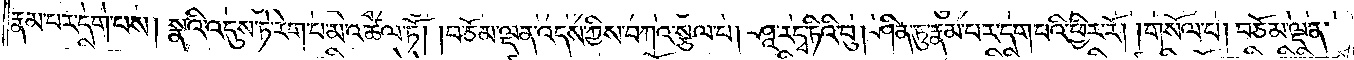རྣམ་པར་དག་པས། སྣའི་འདུས་ཏེ་རེག་པ་མ་འཚལ་ཏོ། །བཅོམ་ལྡན་འདས་ཀྱིས་བཀའ་སྩལ་པ། ཤཱ་རདྭ་ཏིའི་བུ། ཤིན་ཏུ་རྣམ་པར་དག་པའི་ཕྱིར་རོ། །གསོལ་པ། བཅོམ་ལྡན་
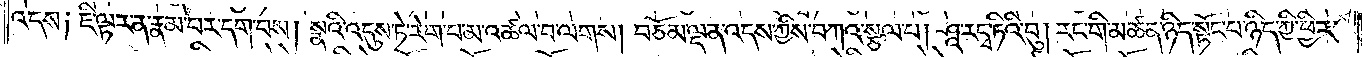འདས༑ ཇི་ལྟར་ན་རྣམ་པར་དག་པས། སྣའི་འདུས་ཏེ་རེག་པ་མ་འཚལ་བ་ལགས། བཅོམ་ལྡན་འདས་ཀྱིས་བཀའ་སྩལ་པ། ཤཱ་རདྭ་ཏིའི་བུ། རང་གི་མཚན་ཉིད་སྟོང་པ་ཉིད་ཀྱི་ཕྱིར་
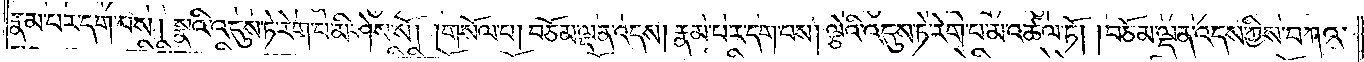རྣམ་པར་དག་པས། སྣའི་འདུས་ཏེ་རེག་པ་མི་ཤེས་སོ། །གསོལ་པ། བཅོམ་ལྡན་འདས། རྣམ་པར་དག་པས། ལྕེའི་འདུས་ཏེ་རེག་པ་མ་འཚལ་ཏོ། །བཅོམ་ལྡན་འདས་ཀྱིས་བཀའ་
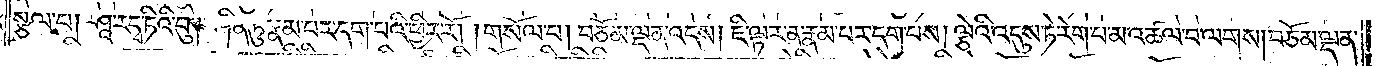སྩལ་པ། ཤཱ་རདྭ་ཏིའི་བུ། ཤིན་ཏུ་རྣམ་པར་དག་པའི་ཕྱིར་རོ། །གསོལ་པ། བཅོམ་ལྡན་འདས། ཇི་ལྟར་ན་རྣམ་པར་དག་པས། ལྕེའི་འདུས་ཏེ་རེག་པ་མ་འཚལ་བ་ལགས། བཅོམ་ལྡན་
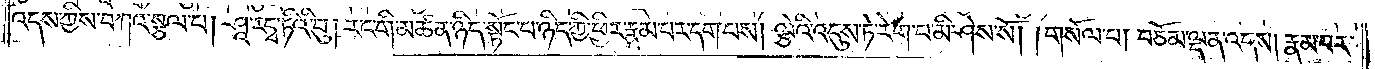འདས་ཀྱིས་བཀའ་སྩལ་པ། ཤཱ་རདྭ་ཏིའི་བུ། རང་གི་མཚན་ཉིད་སྟོང་པ་ཉིད་ཀྱི་ཕྱིར་རྣམ་པར་དག་པས། ལྕེའི་འདུས་ཏེ་རེག་པ་མི་ཤེས་སོ། །གསོལ་པ། བཅོམ་ལྡན་འདས། རྣམ་པར་
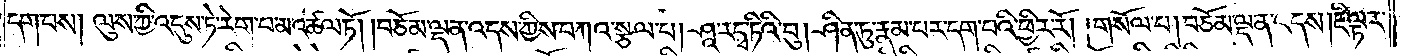དག་པས། ལུས་ཀྱི་འདུས་ཏེ་རེག་པ་མ་འཚལ་ཏོ། །བཅོམ་ལྡན་འདས་ཀྱིས་བཀའ་སྩལ་པ། ཤཱ་རདྭ་ཏིའི་བུ། ཤིན་ཏུ་རྣམ་པར་དག་པའི་ཕྱིར་རོ། །གསོལ་པ། བཅོམ་ལྡན་འདས། ཇི་ལྟར་
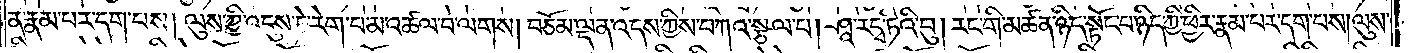ན་རྣམ་པར་དག་པས། ལུས་ཀྱི་འདུས་ཏེ་རེག་པ་མ་འཚལ་བ་ལགས། བཅོམ་ལྡན་འདས་ཀྱིས་བཀའ་སྩལ་པ། ཤཱ་རདྭ་ཏིའི་བུ། རང་གི་མཚན་ཉིད་སྟོང་པ་ཉིད་ཀྱི་ཕྱིར་རྣམ་པར་དག་པས། ལུས་
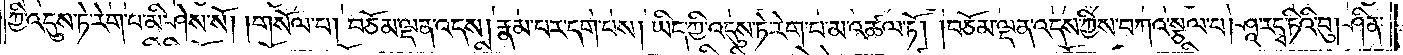ཀྱི་འདུས་ཏེ་རེག་པ་མི་ཤེས་སོ། །གསོལ་པ། བཅོམ་ལྡན་འདས། རྣམ་པར་དག་པས། ཡིད་ཀྱི་འདུས་ཏེ་རེག་པ་མ་འཚལ་ཏོ། །བཅོམ་ལྡན་འདས་ཀྱིས་བཀའ་སྩལ་པ། ཤཱ་རདྭ་ཏིའི་བུ། ཤིན་
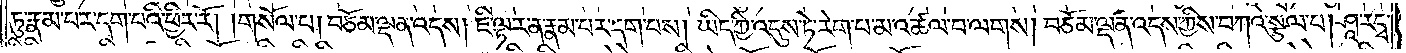ཏུ་རྣམ་པར་དག་པའི་ཕྱིར་རོ། །གསོལ་པ། བཅོམ་ལྡན་འདས། ཇི་ལྟར་ན་རྣམ་པར་དག་པས། ཡིད་ཀྱི་འདུས་ཏེ་རེག་པ་མ་འཚལ་བ་ལགས། བཅོམ་ལྡན་འདས་ཀྱིས་བཀའ་སྩལ་པ། ཤཱ་རདྭ་
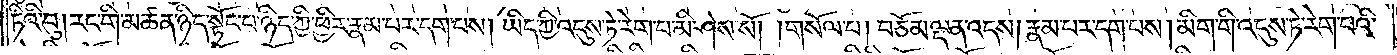ཏིའི་བུ། རང་གི་མཚན་ཉིད་སྟོང་པ་ཉིད་ཀྱི་ཕྱིར་རྣམ་པར་དག་པས། ཡིད་ཀྱི་འདུས་ཏེ་རེག་པ་མི་ཤེས་སོ། །གསོལ་པ། བཅོམ་ལྡན་འདས། རྣམ་པར་དག་པས། མིག་གི་འདུས་ཏེ་རེག་པའི་
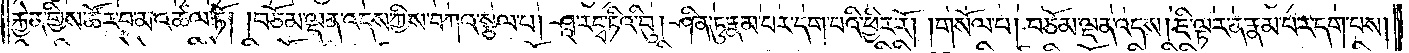རྐྱེན་གྱིས་ཚོར་བ་མ་འཚལ་ཏོ། །བཅོམ་ལྡན་འདས་ཀྱིས་བཀའ་སྩལ་པ། ཤཱ་རདྭ་ཏིའི་བུ། ཤིན་ཏུ་རྣམ་པར་དག་པའི་ཕྱིར་རོ། །གསོལ་པ། བཅོམ་ལྡན་འདས། ཇི་ལྟར་ན་རྣམ་པར་དག་པས།
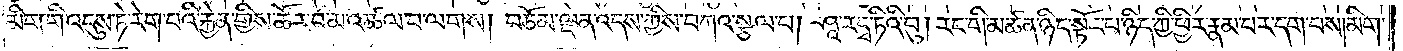མིག་གི་འདུས་ཏེ་རེག་པའི་རྐྱེན་གྱིས་ཚོར་བ་མ་འཚལ་བ་ལགས། བཅོམ་ལྡན་འདས་ཀྱིས་བཀའ་སྩལ་པ། ཤཱ་རདྭ་ཏིའི་བུ། རང་གི་མཚན་ཉིད་སྟོང་པ་ཉིད་ཀྱི་ཕྱིར་རྣམ་པར་དག་པས། མིག་
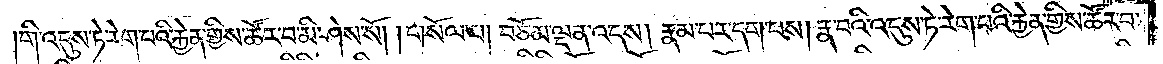གི་འདུས་ཏེ་རེག་པའི་རྐྱེན་གྱིས་ཚོར་བ་མི་ཤེས་སོ། །གསོལ་པ། བཅོམ་ལྡན་འདས། རྣམ་པར་དག་པས། རྣ་བའི་འདུས་ཏེ་རེག་པའི་རྐྱེན་གྱིས་ཚོར་བ་
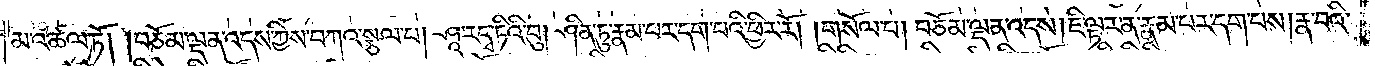མ་འཚལ་ཏོ། །བཅོམ་ལྡན་འདས་ཀྱིས་བཀའ་སྩལ་པ། ཤཱ་རདྭ་ཏིའི་བུ། ཤིན་ཏུ་རྣམ་པར་དག་པའི་ཕྱིར་རོ། །གསོལ་པ། བཅོམ་ལྡན་འདས། ཇི་ལྟར་ན་རྣམ་པར་དག་པས། རྣ་བའི་
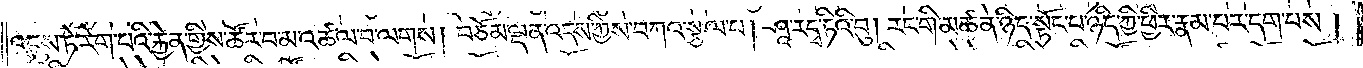འདུས་ཏེ་རེག་པའི་རྐྱེན་གྱིས་ཚོར་བ་མ་འཚལ་བ་ལགས། བཅོམ་ལྡན་འདས་ཀྱིས་བཀའ་སྩལ་པ། ཤཱ་རདྭ་ཏིའི་བུ། རང་གི་མཚན་ཉིད་སྟོང་པ་ཉིད་ཀྱི་ཕྱིར་རྣམ་པར་དག་པས།
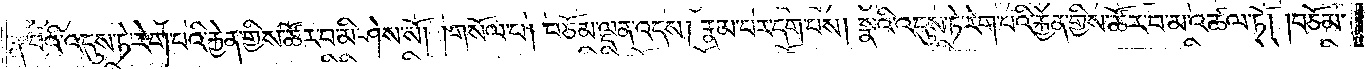རྣ་བའི་འདུས་ཏེ་རེག་པའི་རྐྱེན་གྱིས་ཚོར་བ་མི་ཤེས་སོ། །གསོལ་པ། བཅོམ་ལྡན་འདས། རྣམ་པར་དག་པས། སྣའི་འདུས་ཏེ་རེག་པའི་རྐྱེན་གྱིས་ཚོར་བ་མ་འཚལ་ཏོ། །བཅོམ་
